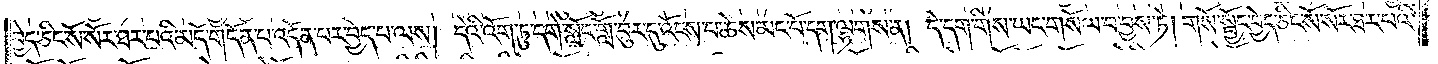བྱེད་ཅིང་སོ་སོར་ཐར་པའི་མདོ་གདོན་པ་འདོན་པར་བྱེད་པ་ལས། དེའི་འོག་ཏུ་དགེ་སློང་གློ་བུར་དུ་འོངས་པ་ཆེས་མང་པོ་དག་ལྷགས་ན། དེ་དག་གིས་ཡང་གསོལ་བ་བྱས་ཏེ། གསོ་སྦྱོང་བྱེད་ཅིང་སོ་སོར་ཐར་པའི་
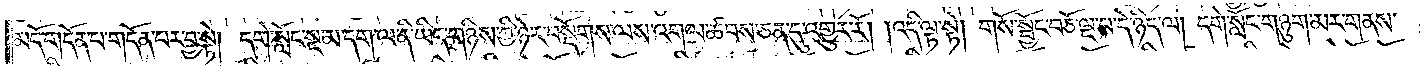མདོ་གདོན་པ་གདོན་པར་བྱ་སྟེ། དགེ་སློང་སྔ་མ་དག་ལ་ནི་ཡིད་གཉིས་ཀྱི་ཉེར་བསྡོགས་ལས་འགལ་ཚབས་ཅན་དུ་འགྱུར་རོ། །འདི་ལྟ་སྟེ། གསོ་སྦྱོང་བཅོ་ལྔ་པ་དེ་ཉིད་ལ། དགེ་སློང་གཉུག་མར་གནས་
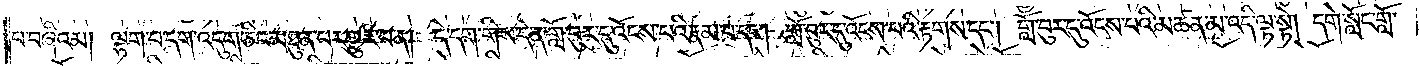པ་བཞིའམ། ལྷག་པ་དག་འདུག་ཅིང་མཐུན་པར་གྱུར་པ་ན། དེ་དག་གིས་དེ་ན་གློ་བུར་དུ་འོངས་པའི་རྣམ་པ་དང༌། གློ་བུར་དུ་འོངས་པའི་རྟགས་དང༌། གློ་བུར་དུ་འོངས་པའི་མཚན་མ་འདི་ལྟ་སྟེ། དགེ་སློང་གློ་
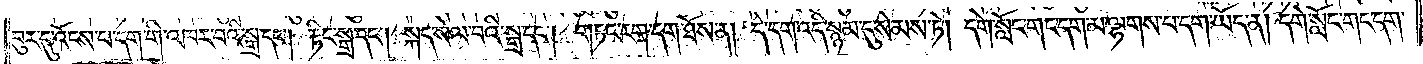བུར་དུ་འོངས་པ་དག་གི་འཁར་བའི་སྒྲ་དང༌། རྟིང་སྒྲ་དང༌། སྐད་སེལ་བའི་སྒྲ་དང༌། གཏང་རག་དག་ཐོས་ན། དེ་དག་འདི་སྙམ་དུ་སེམས་ཏེ། དགེ་སློང་གང་དག་མ་ལྷགས་པ་དག་ཡོད་ན། དགེ་སློང་གང་དག་
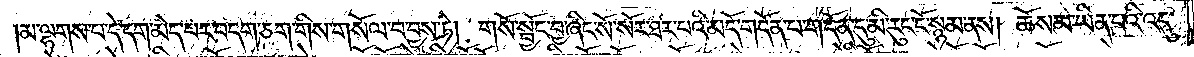།མ་ལྷགས་པ་དེ་དག་མེད་པར་བདག་ཅག་གིས་གསོལ་བ་བྱས་ཏེ། གསོ་སྦྱོང་བྱ་ཞིང་སོ་སོར་ཐར་པའི་མདོ་གདོན་པ་གདོན་དུ་མི་རུང་ངོ་སྙམ་ནས། ཆོས་མ་ཡིན་པའི་འདུ་
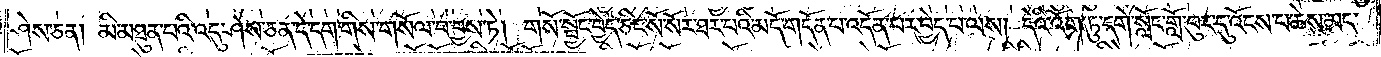ཤེས་ཅན། མི་མཐུན་པའི་འདུ་ཤེས་ཅན་དེ་དག་གིས་གསོལ་བ་བྱས་ཏེ། གསོ་སྦྱོང་བྱེད་ཅིང་སོ་སོར་ཐར་པའི་མདོ་གདོན་པ་འདོན་པར་བྱེད་པ་ལས། དེའི་འོག་ཏུ་དགེ་སློང་གློ་བུར་དུ་འོངས་པ་ཆེས་མང་
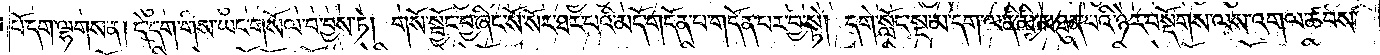པོ་དག་ལྷགས་ན། དེ་དག་གིས་ཡང་གསོལ་བ་བྱས་ཏེ། གསོ་སྦྱོང་བྱ་ཞིང་སོ་སོར་ཐར་པའི་མདོ་གདོན་པ་གདོན་པར་བྱ་སྟེ། དགེ་སློང་སྔ་མ་དག་ལ་ནི་མི་མཐུན་པའི་ཉེར་བསྡོགས་ལས་འགལ་ཚབས་
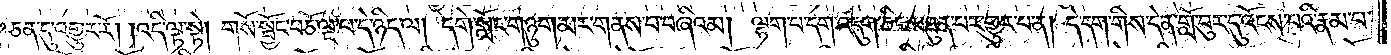ཅན་དུ་འགྱུར་རོ། །འདི་ལྟ་སྟེ། གསོ་སྦྱོང་བཅོ་ལྔ་པ་དེ་ཉིད་ལ། དགེ་སློང་གཉུག་མར་གནས་པ་བཞིའམ། ལྷག་པ་དག་འདུག་ཅིང་མཐུན་པར་གྱུར་པ་ན། དེ་དག་གིས་དེ་ན་གློ་བུར་དུ་འོངས་པའི་རྣམ་པ་
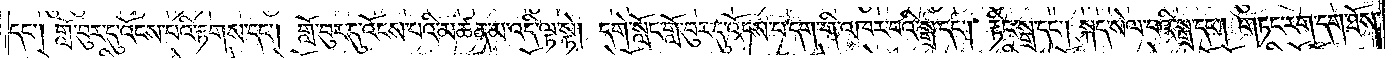དང༌། གློ་བུར་དུ་འོངས་པའི་རྟགས་དང༌། གློ་བུར་དུ་འོངས་པའི་མཚན་མ་འདི་ལྟ་སྟེ། དགེ་སློང་གློ་བུར་དུ་འོངས་པ་དག་གི་འཁར་བའི་སྒྲ་དང༌། རྟིང་སྒྲ་དང༌། སྐད་སེལ་བའི་སྒྲ་དང༌། གཏང་རག་དག་ཐོས་
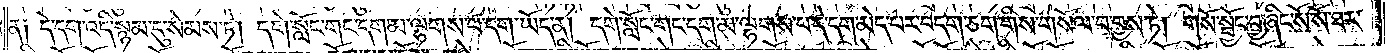ན༑ དེ་དག་འདི་སྙམ་དུ་སེམས་ཏེ། དགེ་སློང་གང་དག་མ་ལྷགས་པ་དག་ཡོད་ན། དགེ་སློང་གང་དག་མ་ལྷགས་པ་དེ་དག་མེད་པར་བདག་ཅག་གིས་གསོལ་བ་བྱས་ཏེ། གསོ་སྦྱོང་བྱ་ཞིང་སོ་སོ་ཐར་
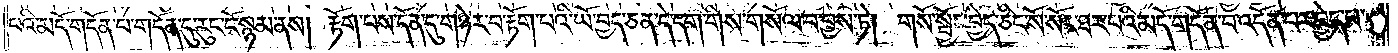པའི་མདོ་གདོན་པ་གདོན་དུ་རུང་ངོ་སྙམ་ནས། རྟོག་པས་དོན་དུ་གཉེར་བ་རྟོག་པའི་ཡོ་བྱད་ཅན་དེ་དག་གིས་གསོལ་བ་བྱས་ཏེ། གསོ་སྦྱོང་བྱེད་ཅིང་སོ་སོར་ཐར་པའི་མདོ་གདོན་པ་འདོན་པར་བྱེད་པ་
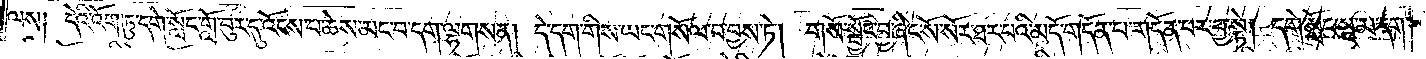ལས། དེའི་འོག་ཏུ་དགེ་སློང་གློ་བུར་དུ་འོངས་པ་ཆེས་མང་བ་དག་ལྷགས་ན། དེ་དག་གིས་ཡང་གསོལ་བ་བྱས་ཏེ། གསོ་སྦྱོང་བྱ་ཞིང་སོ་སོར་ཐར་པའི་མདོ་གདོན་པ་གདོན་པར་བྱ་སྟེ། དགེ་སློང་སྔ་མ་དག་
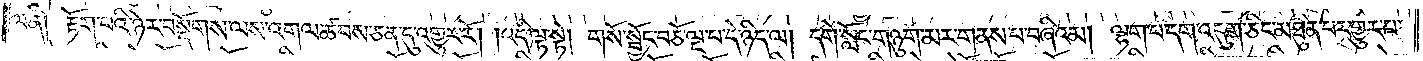ལ་ནི། རྟོག་པའི་ཉེར་བསྡོགས་ལས་འགལ་ཚབས་ཅན་དུ་འགྱུར་རོ། །འདི་ལྟ་སྟེ། གསོ་སྦྱོང་བཅོ་ལྔ་པ་དེ་ཉིད་ལ། དགེ་སློང་གཉུག་མར་གནས་པ་བཞིའམ། ལྷག་པ་དག་འདུག་ཅིང་མཐུན་པར་གྱུར་པ་
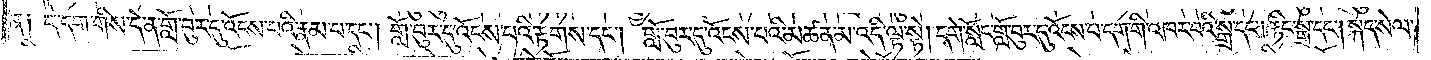ན༑ དེ་དག་གིས་དེ་ན་གློ་བུར་དུ་འོངས་པའི་རྣམ་པ་དང༌། གློ་བུར་དུ་འོངས་པའི་རྟགས་དང༌། གློ་བུར་དུ་འོངས་པའི་མཚན་མ་འདི་ལྟ་སྟེ། དགེ་སློང་གློ་བུར་དུ་འོངས་པ་དག་གི་འཁར་བའི་སྒྲ་དང༌། རྟིང་སྒྲ་དང༌། སྐད་སེལ་
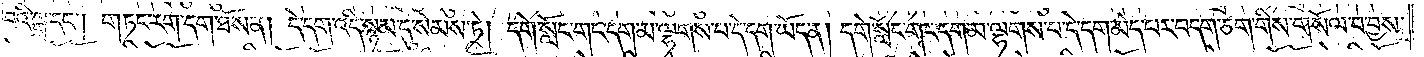བའི་སྒྲ་དང༌། གཏང་རག་དག་ཐོས་ན། དེ་དག་འདི་སྙམ་དུ་སེམས་ཏེ། དགེ་སློང་གང་དག་མ་ལྷགས་པ་དེ་དག་ཡོད་ན། དགེ་སློང་གང་དག་མ་ལྷགས་པ་དེ་དག་མེད་པར་བདག་ཅག་གིས་གསོལ་བ་བྱས་
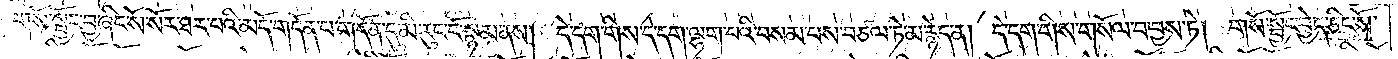ཏེ༑ གསོ་སྦྱོང་བྱ་ཞིང་སོ་སོར་ཐར་པའི་མདོ་གདོན་པ་གདོན་དུ་མི་རུང་ངོ་སྙམ་ནས། དེ་དག་གིས་དེ་དག་ལྷག་པའི་བསམ་པས་བཙལ་ཏེ་མ་རྙེད་ན། དེ་དག་གིས་གསོལ་བ་བྱས་ཏེ། གསོ་སྦྱོང་བྱེད་ཅིང་སོ་
